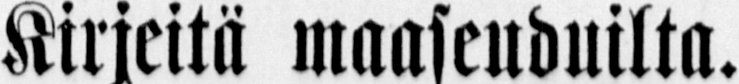Kirjeitä maaseuduilta.
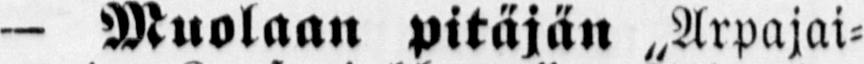— Muolaan pitäjän „Arpajai-
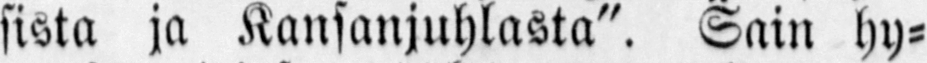sista ja Kansanjuhlasta". Sain hy-
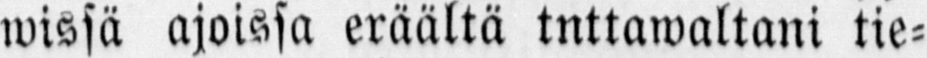wissä ajoissa eräältä tnttawaltani tie-
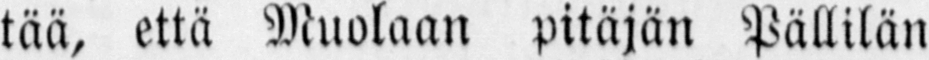tää, että Muolaan pitäjän Pällilän
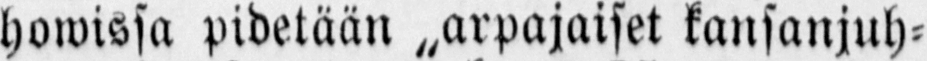howissa pidetään kansanjuh-
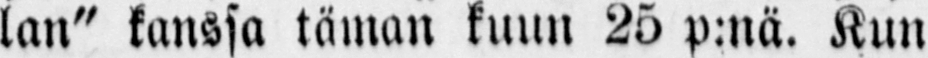lan" kanssa tämän kuun 25 p.nä. Kun
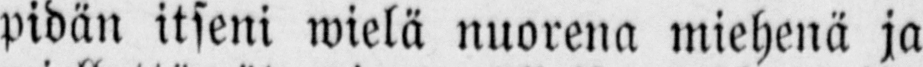pidän itseni wielä nuorena miehenä ja
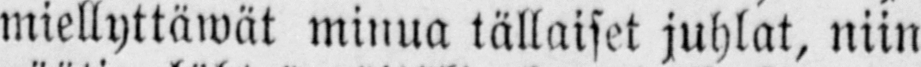miellyttäwät minua tällaiset juhlat, niin
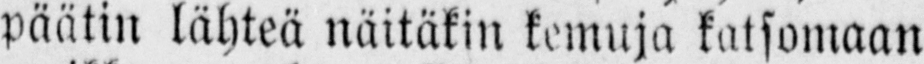päätin lähteä näitäkin kemuja katsomaan
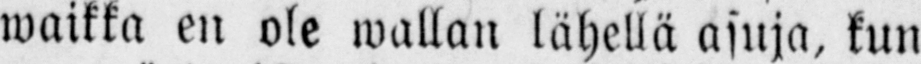waikka en ole wallan lähellä asuja, kun
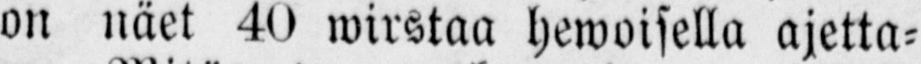on näet 40 wirstaa hewoisella ajetta-
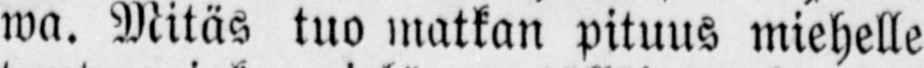wa. Mitäs tuo matkan pituus miehelle
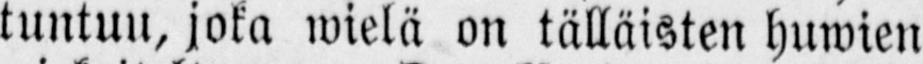tuntuu, joka wielä on tälläisten huwien
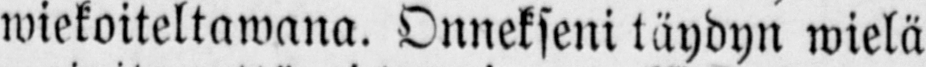wiekoiteltawana. Onnekseni täydyn wielä
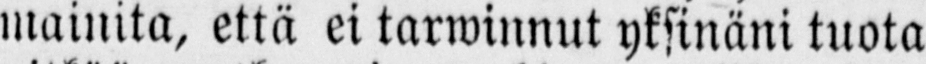mainita, että ei tarwinnut yksinäni tuota
